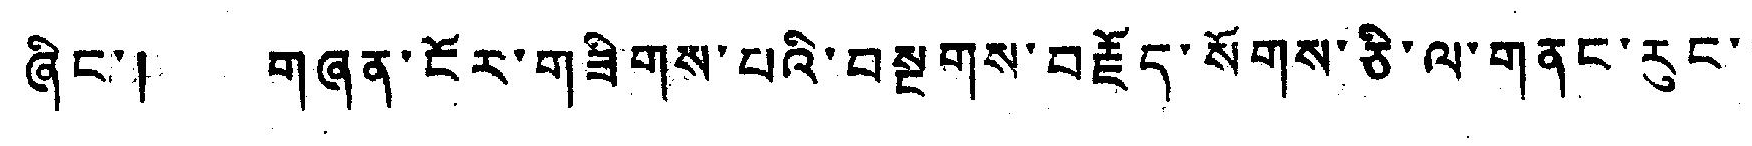ཞིང་། གཞན་ངོར་གཟིགས་པའི་བསྔགས་བརྗོད་སོགས་ཅི་ལ་གནང་རུང་།
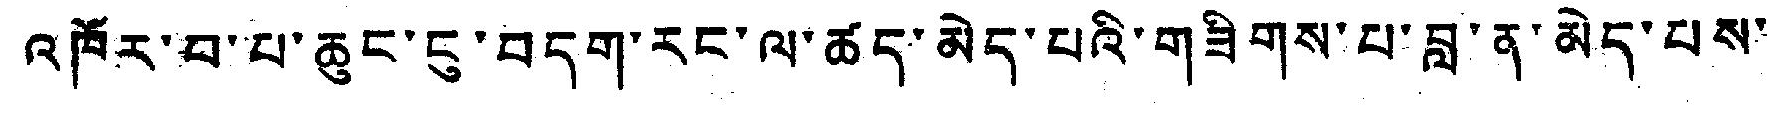འཁོར་བ་པ་ཆུང་ངུ་བདག་རང་ལ་ཚད་མེད་པའི་གཟིགས་པ་བླ་ན་མེད་པས་་
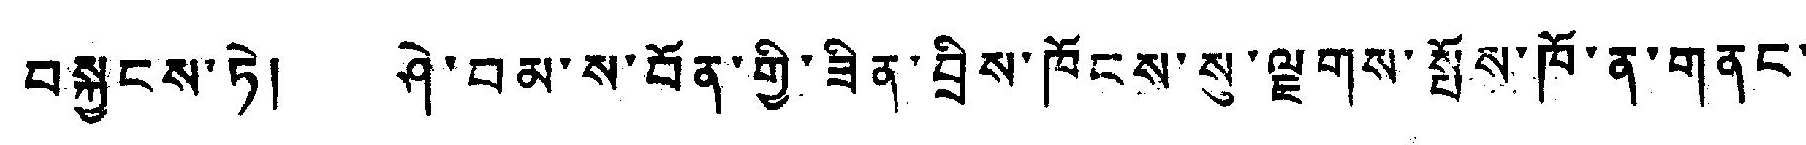བསྐྱངས་ཏེ། ཤེ་བམ་ས་བོན་གྱི་ཟིན་བྲིས་ཁོངས་སུ་ལྗགས་སྤོས་ཁོ་ན་གནང་
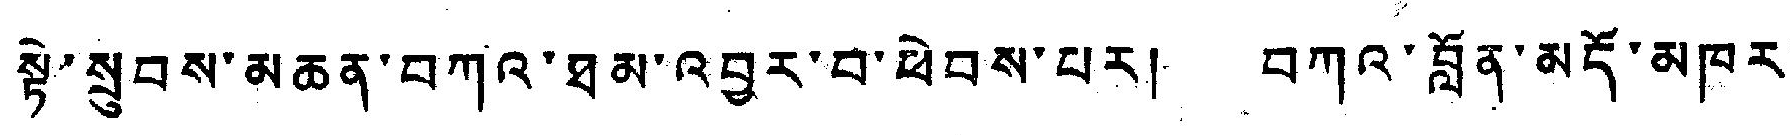སྟེ་སྲུབས་མཆན་བཀའ་ཐམ་འབྱར་བ་ཕེབས་པར། བཀའ་བློན་མདོ་མཁར་
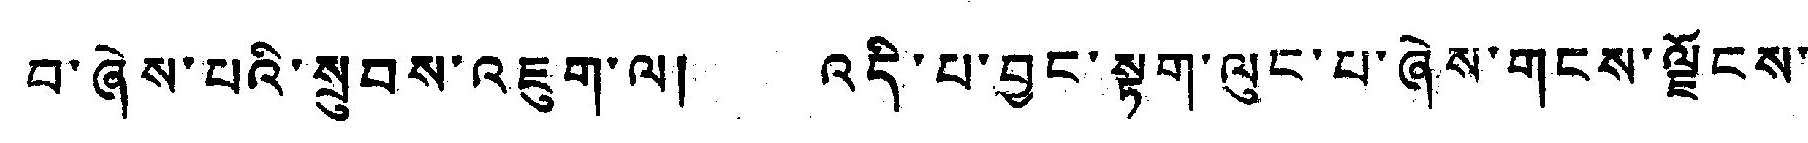བ་ཞེས་པའི་སུབས་འཇུག་ལ། འདི་པ་བྱང་སྟག་ལུང་པ་ཞེས་གངས་ལྗོངས་
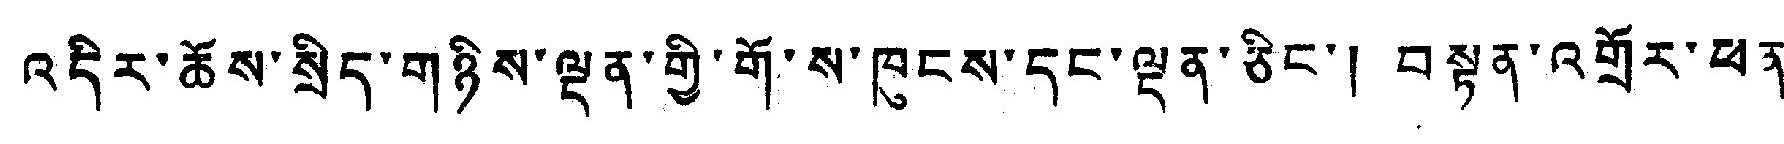འདིར་ཆོས་སྲིད་གཉིས་ལྡན་གྱི་གོ་ས་ཁུངས་དང་ལྡན་ཅིང་། བསྟན་འགྲོར་ཕན་
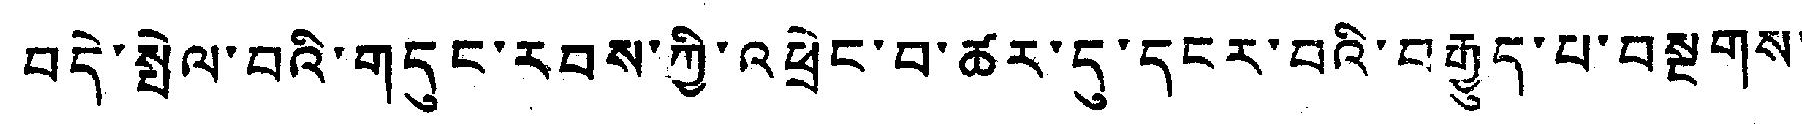བདེ་སྤེལ་བའི་གདུང་རབས་ཀྱི་འཕྲེང་བ་ཚར་དུ་དངར་བའི་བརྒྱུད་པ་བསྔགས་
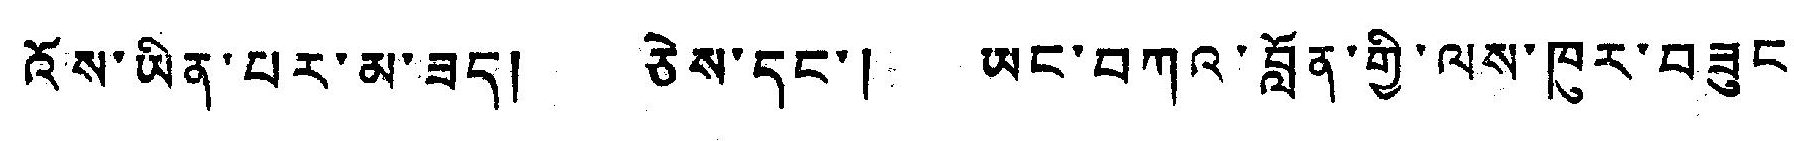འོས་ཡིན་པར་མ་ཟད། ཅེས་དང་། ཡང་བཀའ་བློན་གྱི་ལས་ཁུར་བཟུང་
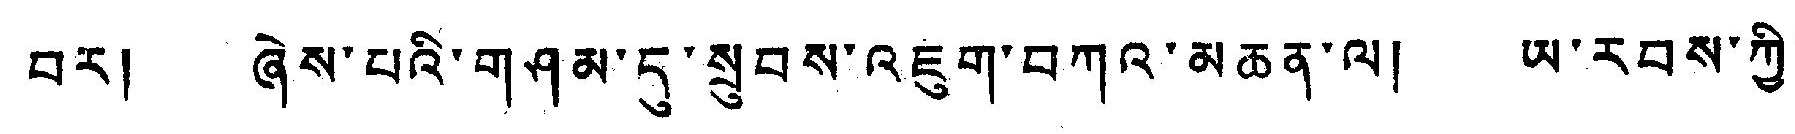བར། ཞེས་པའི་གཤམ་དུ་སྲུབས་འཇུག་བཀའ་མཆན་ལ། ཡ་རབས་ཀྱི་
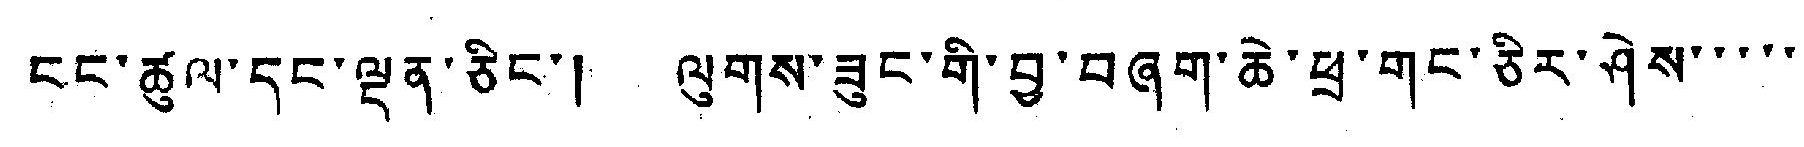ངང་ཚུལ་དང་ལྡན་ཅིང་། ལུགས་ཟུང་གི་བྱ་བཞག་ཆེ་ཕྲ་གང་ཅིར་ཤེས་་་་་
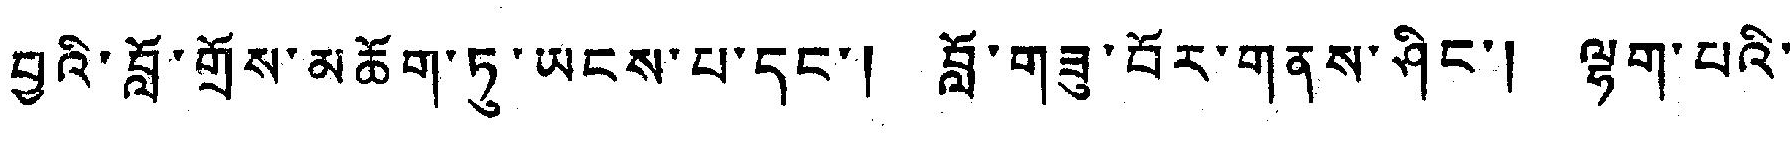བྱའི་བློ་གྲོས་མཆོག་ཏུ་ཡངས་པ་དང་། བློ་གཟུ་བོར་གནས་ཤིང་། ལྷག་པའི་
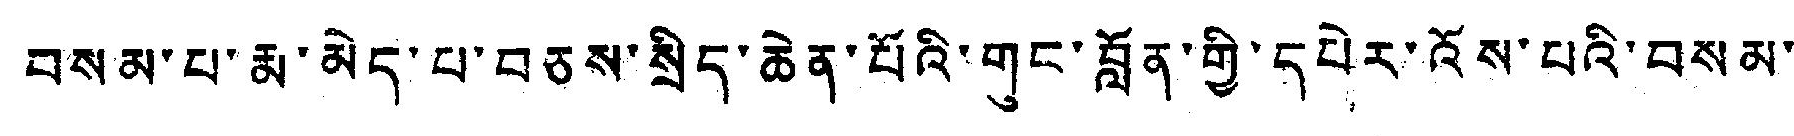བསམ་པ་རྨ་མེད་པ་བཅས་སྲིད་ཆེན་པོའི་གུང་བློན་གྱི་དཔེར་འོས་པའི་བསམ་
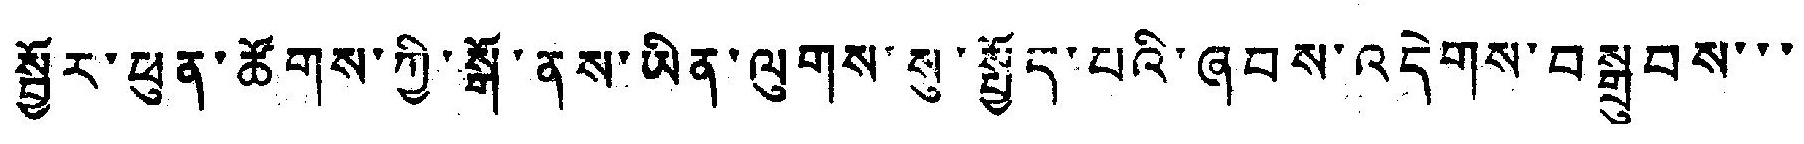སྦྱོར་ཕུན་ཚོགས་ཀྱི་སྒོ་ནས་ཡིན་ལུགས་སུ་སྤྱོད་པའི་ཞབས་འདེགས་བསྒྲུབས་་་
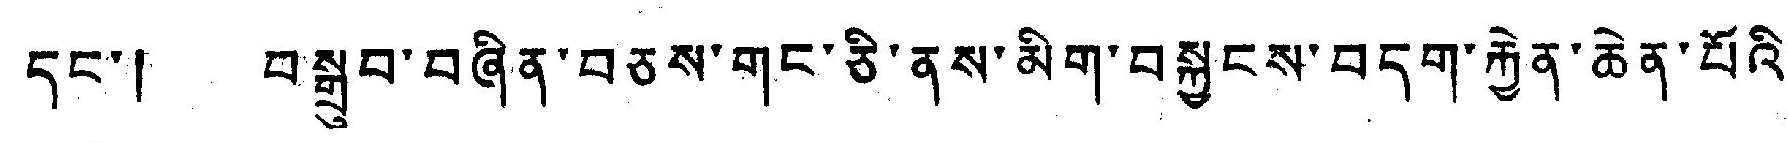དང་། བསྒྲུབ་བཞིན་བཅས་གང་ཅི་ནས་མིག་བསྐྱངས་བདག་རྐྱེན་ཆེན་པོའི་
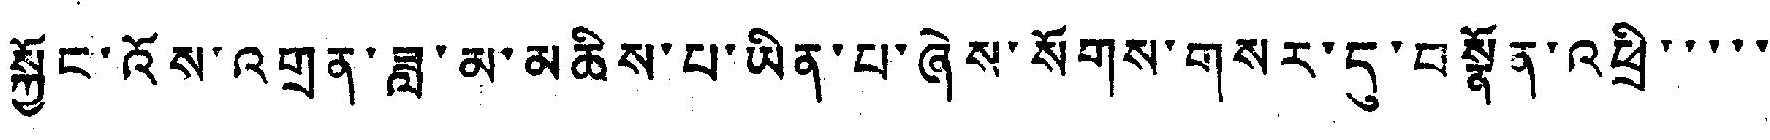སྐྱོང་འོས་འགྲན་བླ་མ་མཆིས་པ་ཡིན་པ་ཞེས་སོགས་གསར་དུ་བསྣོན་འཕྲི་་་་་
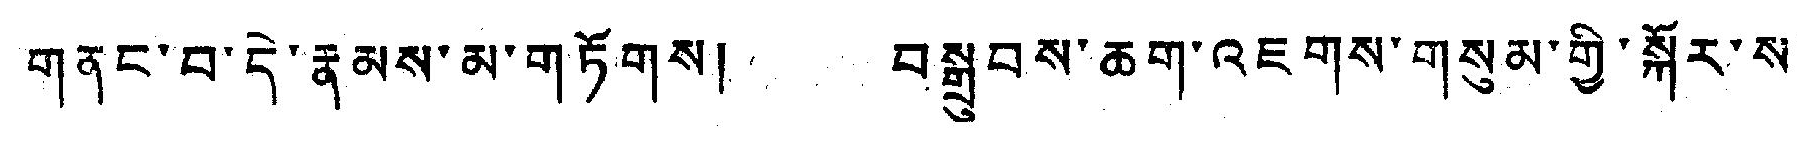གནང་བ་དེ་རྣམས་མ་གཏོགས། བསྒྲུབས་ཆག་འཇགས་གསུམ་གྱི་སྐོར་ས་
